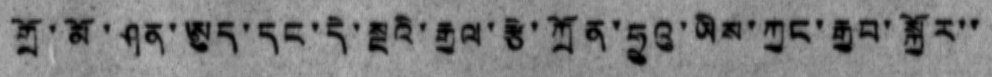གྲོ་མོ་ཤན་ཨུད་དང་དེ་སྔའི་རྒྱལ་རྩེ་ཀྲོན་ཧྲུའུ་ཡིས་ཀྱང་རྒྱབ་སྐྱོར་་
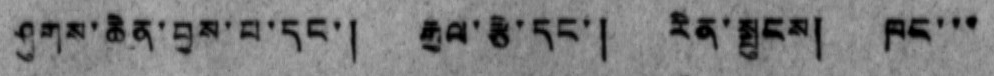ཤུགས་ཆེན་བྱས་པ་དང་། རྒྱལ་རྩེ་དང་། རིན་སྤུངས། ཁང་་་
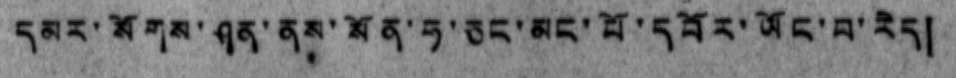དམར་སོགས་ཤན་ནས་སོན་ཧ་ཅང་མང་པོ་དབོར་ཡོང་བ་རེད།
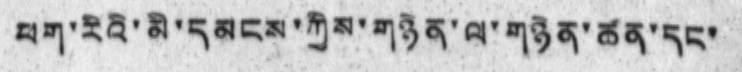ཕག་རིའི་མི་དམངས་ཀྱིས་གཉེན་ལ་གཉེན་ཚན་དང་།
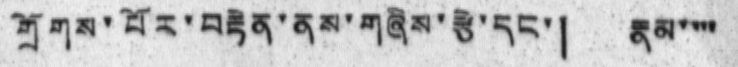གྲོགས་པོར་བརྟེན་ནས་གཞིས་རྩེ་དང་། རྣམ་་་་
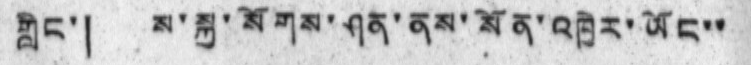གླིང་། ས་སྐྱ་སོགས་ཤན་ནས་སོན་འཁྱེར་ཡོང་་
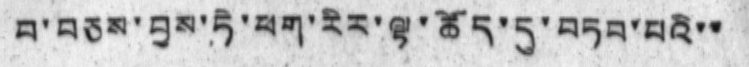བ་བཅས་བྱས་ཏེ་ཕག་རིར་ལྟ་ཚོད་དུ་བཏབ་པའི་་
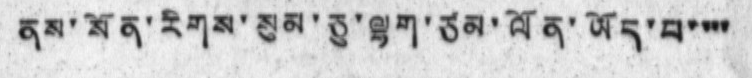ནས་ལོན་རིགས་སུམ་ཅུ་ལྷག་ཙམ་ལོན་ཡོད་པ་་་་
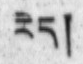རེད།
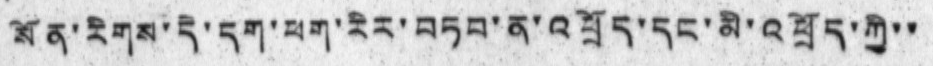སོན་རིགས་དེ་དག་ཕག་རིར་བཏབ་ན་འཕྲོད་དང་མི་འཕྲོད་ཀྱི་་
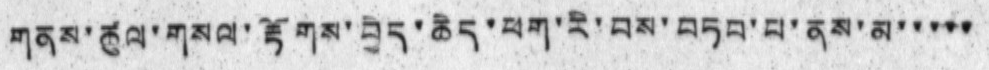གནས་ཚུལ་གསལ་རྟོགས་བྱེད་ཆེད་ཕག་རི་བས་བཏབ་བ་ནས་མ་་་་་
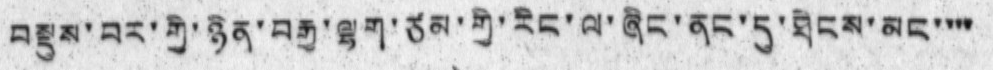བསྡུས་བར་གྱི་ཉིན་བརྒྱ་ལྷག་ཙམ་གྱི་རིང་ལ་ཞིང་ནང་དུ་ཐེངས་མང་་་་
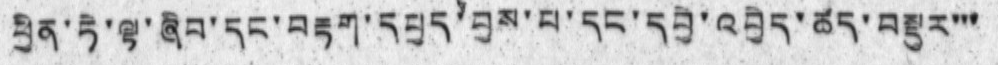ཕྱིན་ཏེ་ལྟ་ཞིབ་དང་བརྟག་དཔྱད་བྱས་པ་དང་དབྱེ་འབྱེད་ཚད་བསྡུར་་་
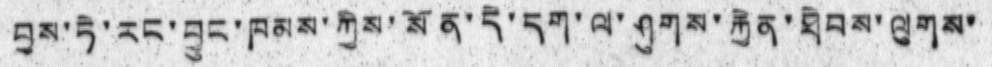བྱས་ཏེ་རང་བྱུང་ཁམས་ཀྱིས་སོན་དེ་དག་ལ་ཤུགས་རྐྱེན་ཐེབས་ལུགས་
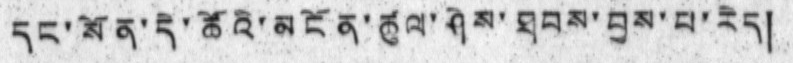དང་སོན་དེ་ཚོའི་མངོན་ཚུལ་ཤེས་ཐབས་བྱས་པ་རེད།
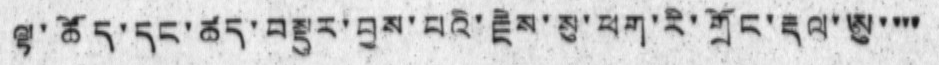ལྟ་ཚོད་དང་ཚད་བསྡུར་བྱས་པའི་རྗེས་སུ་ཕག་རི་གྲོང་རྡལ་ཨུ་་་་
